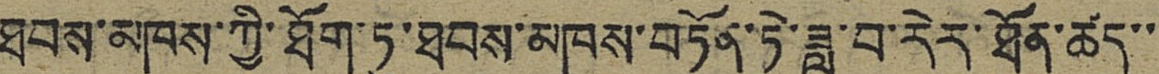ཐབས་མཁས་ཀྱི་ཐོག་ཏུ་ཐབས་མཁས་བཏོན་ཏེ་ཟླ་བ་རེར་ཐོན་ཚད་་
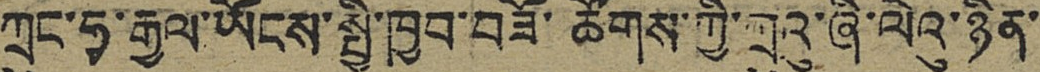ཀྲུང་ཧྭ་རྒྱལ་ཡོངས་སྤྱི་ཁྱབ་བཟོ་ཚོགས་ཀྱི་ཀྲུའུ་ཞི་ལེའུ་ཉིན་
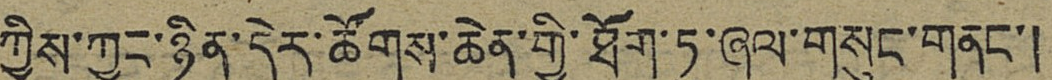ཀྱིས་ཀྱང་ཉིན་དེར་ཚོགས་ཆེན་གྱི་ཐོག་ཏུ་ཞལ་གསུང་གནང་།
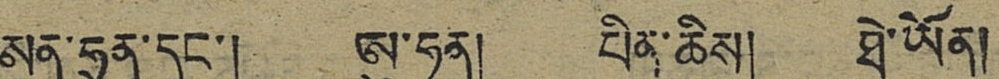ཨན་ཧྲན་དང་། ཨུ་ཧན། པིན་ཆིས། ཐེ་ཡོན།
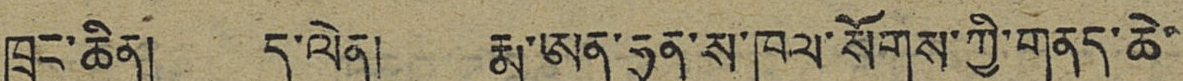ཁྲུང་ཆིན། ད་ལེན། རྨ་ཨན་ཧྲན་ས་ཁུལ་སོགས་ཀྱི་གནད་ཆེ་
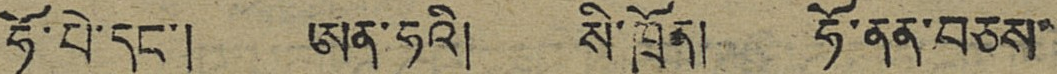ཧོ་པེ་དང་། ཨན་ཧུའི། སི་ཁྲོན། ཧོ་ནན་བཅས་
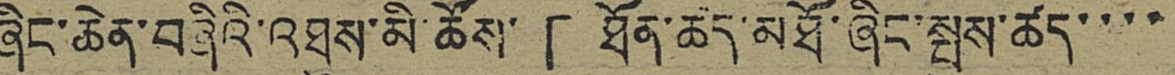ཞིང་ཆེན་བཞིའི་འཐུས་མི་ཚོས་「ཐོན་ཚད་མཐོ་ཞིང་སྤུས་ཚད་་་་
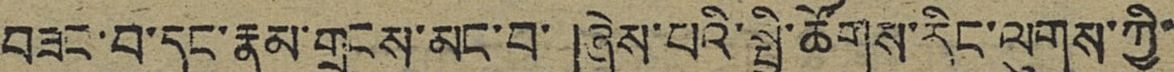བཟང་བ་དང་རྣམ་གྲངས་མང་བ་」ཞེས་པའི་སྤྱི་ཚོགས་རིང་ལུགས་ཀྱི་
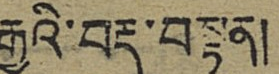རྒྱུའི་བརྡ་བསྟན།
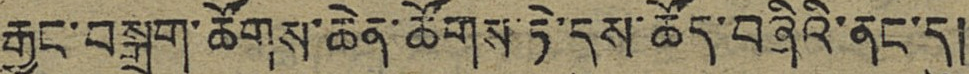རྒྱང་བསྒྲག་ཚོགས་ཆེན་ཚོགས་ཏེ་དུས་ཚོད་བཞིའི་ནང་དུ།
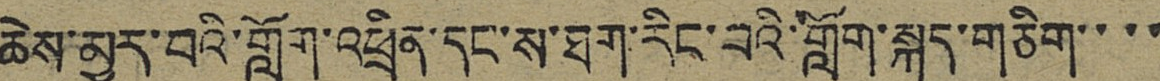ཆེས་མྱུར་བའི་གློག་འཕྲིན་དང་ས་ཐག་རིང་བའི་གློག་སྐད་གཅིག་་་་
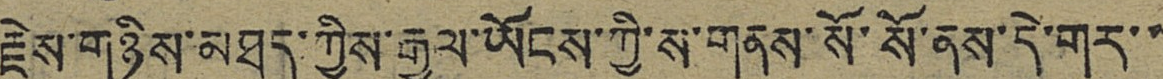རྗེས་གཉིས་མཐུད་ཀྱིས་རྒྱལ་ཡོངས་ཀྱི་ས་གནས་སོ་སོ་ནས་དེ་གར་་
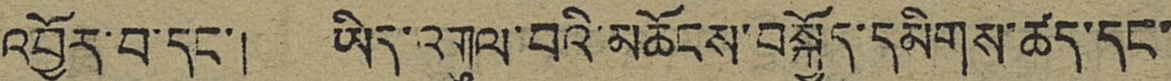འབྱོར་བ་དང་། ཡིད་འགུལ་བའི་མཆོངས་བསྐྱོད་དམིགས་ཚད་དང་
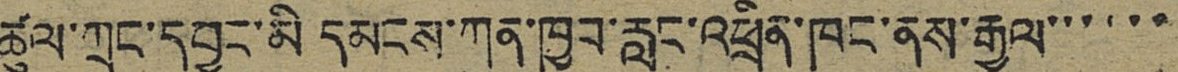ཚུལ་ཀྲུང་དབྱང་མི དམངས་ཀུན་ཁྱབ་རླུང་འཕྲིན་ཁང་ནས་རྒྱལ་་་་་་
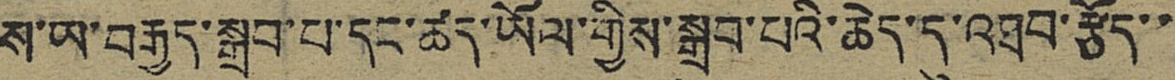ས་ཡ་བརྒྱད་སྒྲུབ་པ་དང་ཚད་ཡོལ་གྱིས་སྒྲུབ་པའི་ཆེད་དུ་འཐབ་རྩོད་་
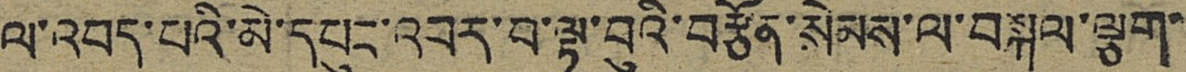ལ་འབད་པའི་མེ་དཔུང་འབར་བ་ལྟ་བུའི་བརྩོན་སེམས་ལ་བསྐུལ་ལྕག་
